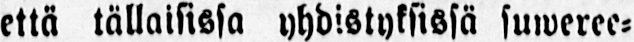että tällaisissa yhdistyksissä suweree-
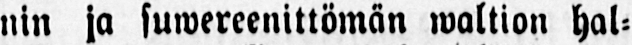nin ja suwereenittömän waltion hal-
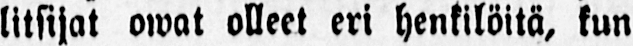litsijat owat olleet eri henkilöitä, kun
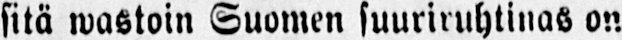sitä wastoin Suomen suuriruhtinas on
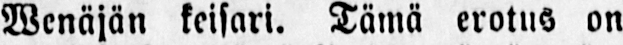Wenäjän keisari. Tämä erotus on
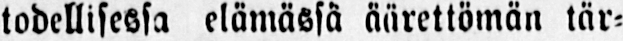todellisessa elämässä äärettömän tär-
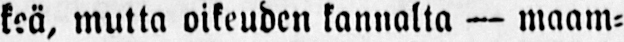keä, mutta oikeuden kannalta — maam-
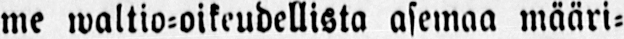me waltio-oikeudellista asemaa määri-
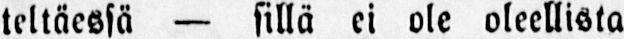teltäessä — sillä ei ole oleellista
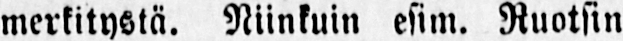merkitystä. Niinkuin esim. Ruotsin
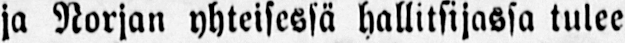ja Norjan yhteisessä hallitsijassa tulee
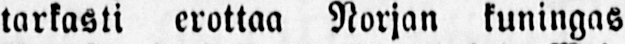tarkasti erottaa Norjan kuningas
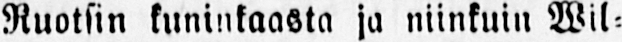Ruotsin kuninkaasta ja niinkuin Wil-
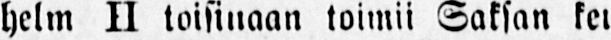helm II toisinaan toimii Saksan kei-
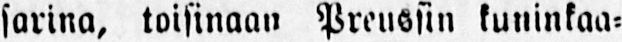sarina, toisinaan Preussin kuninkaa-
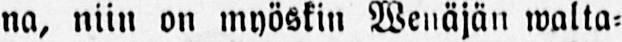na, niin on myöskin Wenäjän walta-
